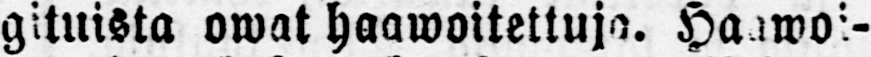gituista owat haawoitettuja. Haiwoi-
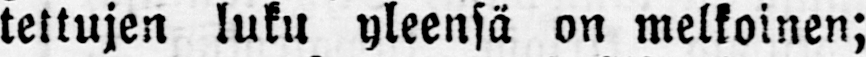tettujen luku yleensä on melkoinen;
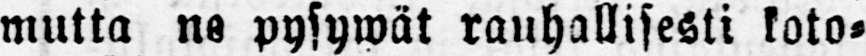mutta ne pysywät rauhallisesti koto-
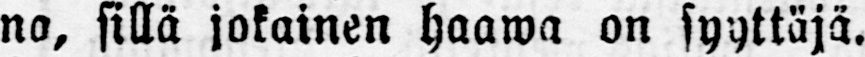na, sillä jokainen haava on syyttäjä.
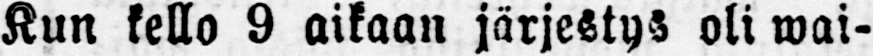Kun kello 9 aikaan järjestys oli wai-
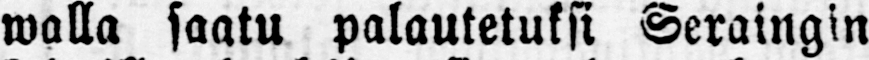walla saatu palautetuksi Seraingin
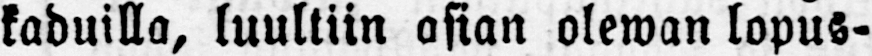kaduilla, luultiin asian olewan lopus-
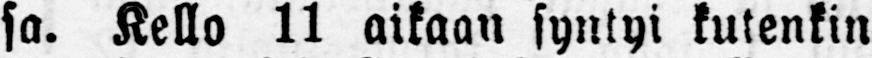sa. Kello 11 aikaan syntyi tulenkin
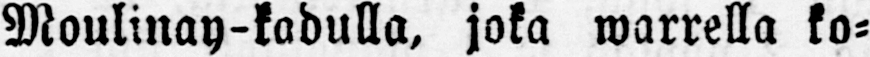Moulinay-kadulla, joka warrolla ko-
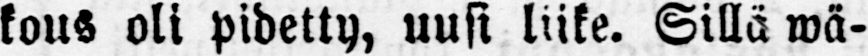kous oli pidetty, uusi liike. Sillä wä-
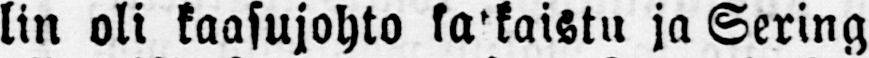kin oli kaasujohto lakaistu ja Sering
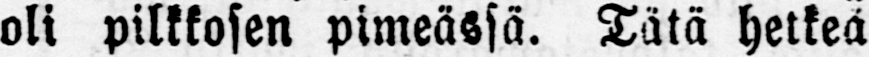oli pilkkosen pimeässä. Tätä hetkeä
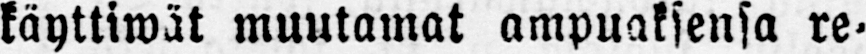käyttiwät muutamat ampuaksensa re-
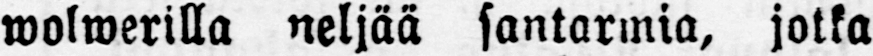wolwerilla neljää santarmia, jotka
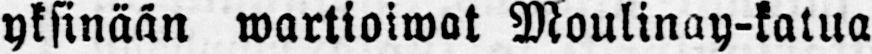yksinään wartioiwat Moulinay-katua
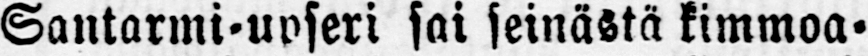Santarmi-upseri sai seinästä kimmoa-
